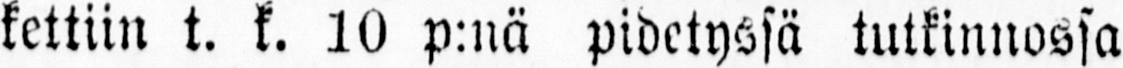kettiin t. k. 10 p:nä pidetyssä tutkinnossa
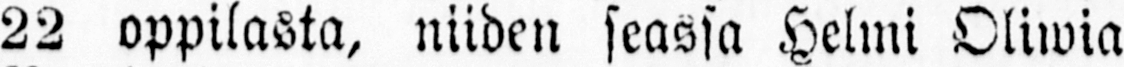22 oppilasta, niiden seassa Helmi Oliwia
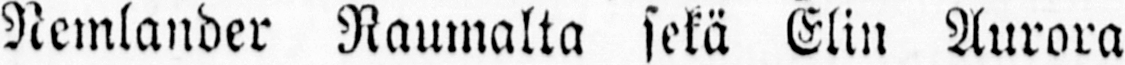Nemlander Raumalta sekä Elin Aurora
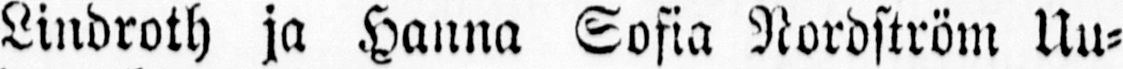Lindroth ja Hanna Sofia Nordström Uu-
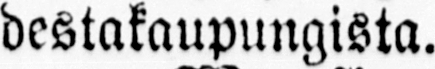destakaupungista.
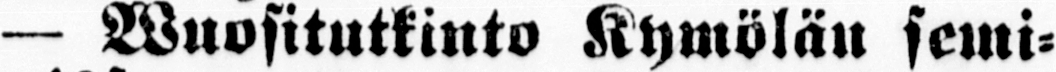— Wuositutkinto Kymölän semi-
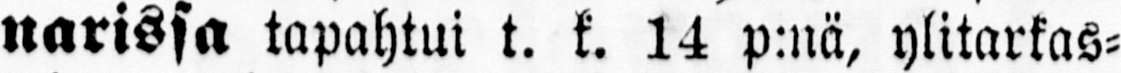narissa tapahtui t. k. 14 p:nä, ylitarkas-
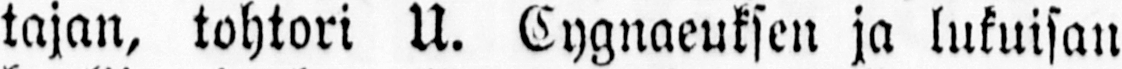tajan, tohtori U. Cygnaeuksen ja lukuisan
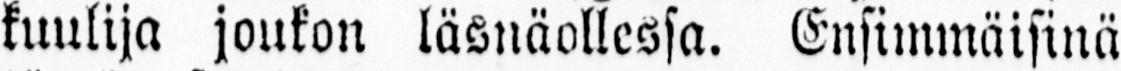kuulija joukon läsnäollessa. Ensimmäisinä
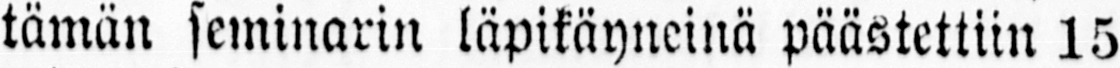tämän seminarin läpikäyneinä päästettiin 15
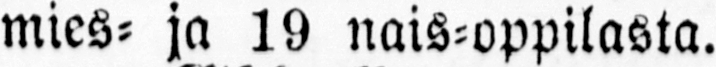mies- ja 19 nais-oppilasta.
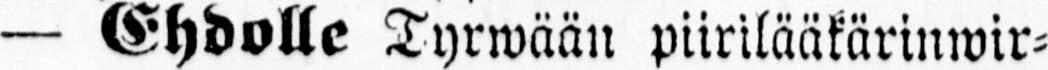— Ehdolle Tyrwään piirilääkärinwir-
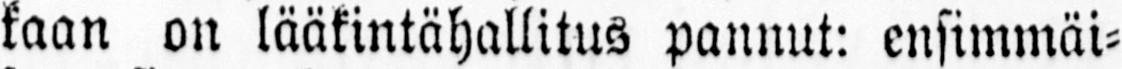kaan on lääkintähallitus pannut: ensimmäi-
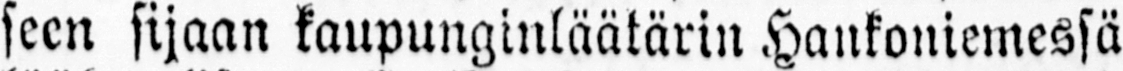seen sijaan kaupunginläätärin Hankoniemessä
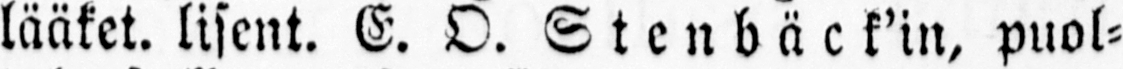lääket. lisent. E. O. Stenbäck'in, puol-
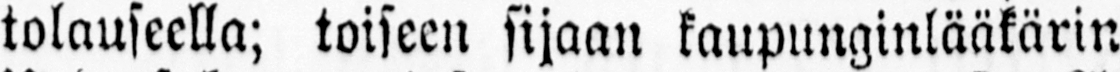tolauseella; toiseen sijaan kaupunginlääkärin
